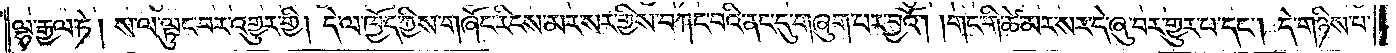ལྷ་རྒྱལ་ཏེ། ས་ལ་ལྟུང་བར་འགྱུར་གྱི། དེ་ལ་ཁྱོད་ཀྱིས་གཞོང་རིངས་མར་སར་གྱིས་བཀང་བའི་ནང་དུ་གཞུག་པར་བྱའོ། །གང་གི་ཚེ་མར་སར་དེ་ཞུ་བར་གྱུར་པ་དང༌། དེ་གཉིས་པ་
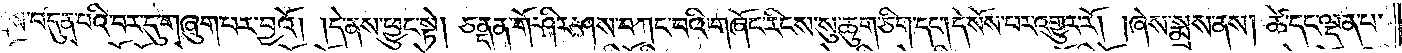ནས་བདུན་པའི་བར་དུ་གཞུག་པར་བྱའོ། །དེ་ནས་ཕྱུང་སྟེ། ཙནྡན་གོ་ཤིར་ཤས་བཀང་བའི་གཞོང་རིངས་སུ་ཆུ་གཅིག་དང༌། དེ་སོས་པར་འགྱུར་རོ། །ཞེས་སྨྲས་ནས། ཚེ་དང་ལྡན་པ་
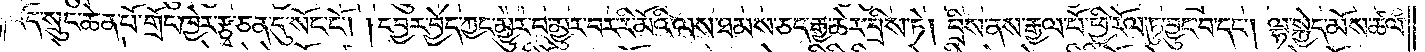འོད་སྲུང་ཆེན་པོ་གྲོང་ཁྱེར་རྩྭ་ཅན་དུ་སོང་ངོ༌། །དབྱར་བྱེད་ཀྱང་མྱུར་བ་མྱུར་བར་རི་མོའི་ལས་ཐམས་ཅད་རྒྱ་ཆེར་བྲིས་ཏེ། བྲིས་ནས་རྒྱལ་པོ་ཕྱི་རོལ་ཏུ་བྱུང་བ་དང༌། ལྷ་སྐྱེད་མོས་ཚལ་
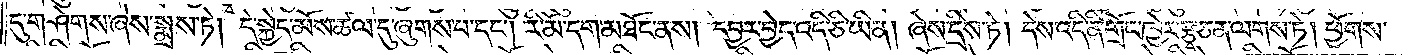དུ་གཤེགས་ཞེས་སྨྲས་ཏེ། དེ་སྐྱེད་མོས་ཚལ་དུ་ཞུགས་པ་དང༌། རི་མོ་དག་མཐོང་ནས། དབྱར་བྱེད་འདི་ཅི་ཡིན། ཞེས་དྲིས་ཏེ། དེས་འདི་ནི་གྲོང་ཁྱེར་རྩྭ་ཅན་ལགས་ཏེ། ཕྱོགས་
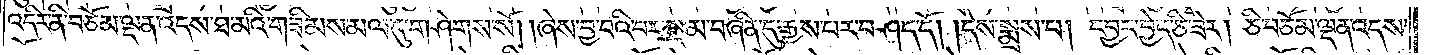འདིར་ནི་བཅོམ་ལྡན་འདས་ཐ་མའི་གཟིམས་མལ་དུ་གཤེགས་སོ། །ཞེས་བྱ་བའི་བར་སྔ་མ་བཞིན་དུ་རྒྱས་པར་བཤད་དོ། །དེས་སྨྲས་པ། དབྱར་བྱེད་ཅི་ཟེར། ཅི་བཅོམ་ལྡན་འདས་
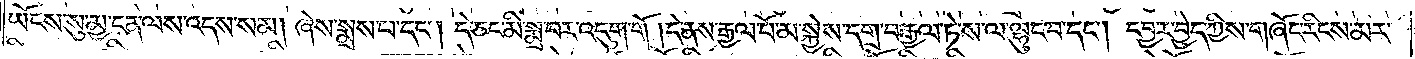ཡོངས་སུ་མྱ་ངན་ལས་འདས་སམ། ཞེས་སྨྲས་པ་དང༌། དེ་ཅང་མི་སྨྲ་བར་འདུག་གོ །དེ་ནས་རྒྱལ་པོ་མ་སྐྱེས་དགྲ་བརྒྱལ་ཏེ་ས་ལ་ལྷུང་བ་དང༌། དབྱར་བྱེད་ཀྱིས་གཞོང་རིངས་མར་
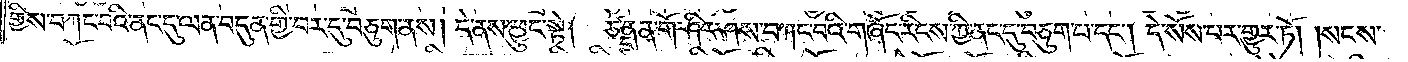གྱིས་བཀང་བའི་ནང་དུ་ལན་བདུན་གྱི་བར་དུ་བཅུག་ནས། དེ་ནས་ཕྱུང་སྟེ། ཙནྡན་གོ་ཤིར་ཤས་བཀང་བའི་གཞོང་རིངས་ཀྱི་ནང་དུ་བཅུག་པ་དང༌། དེ་སོས་པར་གྱུར་ཏེ། །སངས་
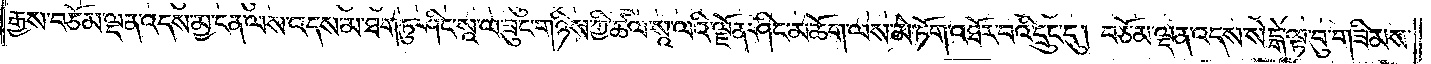རྒྱས་བཅོམ་ལྡན་འདས་མྱ་ངན་ལས་འདས་མ་ཐག་ཏུ་ཤིང་སཱ་ལ་ཟུང་གཉིས་ཀྱི་ཚལ་སཱ་ལའི་ལྗོན་ཤིང་མཆོག་ལས་མེ་ཏོག་འཐོར་བའི་དྲུང་དུ། བཅོམ་ལྡན་འདས་སེངྒེ་ལྟ་བུ་གཟིམས་
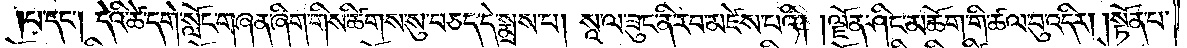།པ་དང༌། དེའི་ཚེ་དགེ་སློང་གཞན་ཞིག་གིས་ཚིགས་སུ་བཅད་དེ་སྨྲས་པ། སཱ་ལ་ཟུང་ནི་རབ་མཛེས་པའི། །ལྗོན་ཤིང་མཆོག་གི་ཚལ་བུ་འདིར། །སྟོན་པ་
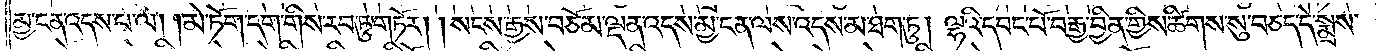མྱ་ངན་འདས་པ་ལ། །མེ་ཏོག་དག་གིས་རབ་ཏུ་གཏོར། །སངས་རྒྱས་བཅོམ་ལྡན་འདས་མྱ་ངན་ལས་འདས་མ་ཐག་ཏུ། ལྷའི་དབང་པོ་བརྒྱ་བྱིན་གྱིས་ཚིགས་སུ་བཅད་དེ་སྨྲས་
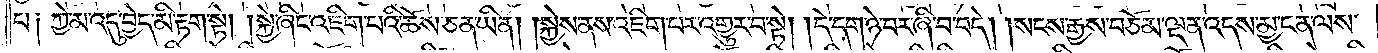པ༑ ཀྱེ་མ་འདུ་བྱེད་མི་རྟག་སྟེ། །སྐྱེ་ཞིང་འཇིག་པའི་ཆོས་ཅན་ཡིན། །སྐྱེས་ནས་འཇིག་པར་འགྱུར་བ་སྟེ། །དེ་དག་ཉེ་བར་ཞི་བ་བདེ། །སངས་རྒྱས་བཅོམ་ལྡན་འདས་མྱ་ངན་ལས་
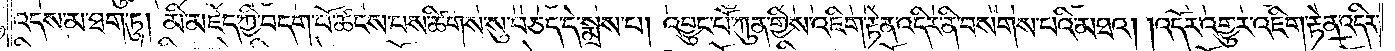འདས་མ་ཐག་ཏུ། མི་མཇེད་ཀྱི་བདག་པོ་ཚངས་པས་ཚིགས་སུ་བཅད་དེ་སྨྲས་པ། འབྱུང་པོ་ཀུན་གྱིས་འཇིག་རྟེན་འདིར་ནི་བསགས་པའི་མཐའ། །འདོར་འགྱུར་འཇིག་རྟེན་འདིར་
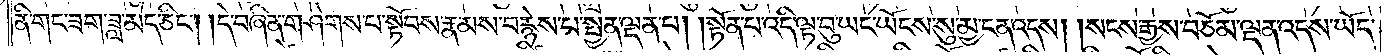ནི་གང་ཟག་ཟླ་མེད་ཅིང༌། །དེ་བཞིན་གཤེགས་པ་སྟོབས་རྣམས་བརྙེས་པ་སྤྱན་ལྡན་པ། །སྟོན་པ་འདི་ལྟ་བུ་ཡང་ཡོངས་སུ་མྱ་ངན་འདས། །སངས་རྒྱས་བཅོམ་ལྡན་འདས་ཡོད་
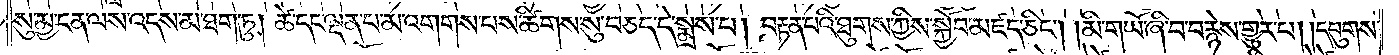སུ་མྱ་ངན་ལས་འདས་མ་ཐག་ཏུ། ཚེ་དང་ལྡན་པ་མ་འགགས་པས་ཚིགས་སུ་བཅད་དེ་སྨྲས་པ། བརྟན་པའི་ཐུགས་ཀྱིས་སྐྱོབ་མཛད་ཅིང༌། །མི་གཡོ་ཞི་བ་བརྙེས་གྱུར་པ། །དབུགས་
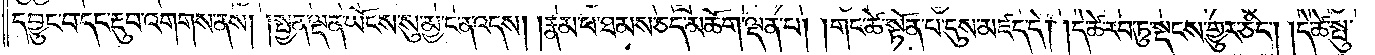དབྱུང་བ་དང་རྔུབ་འགགས་ནས། །སྤྱན་ལྡན་ཡོངས་སུ་མྱ་ངན་འདས། །རྣམ་པ་ཐམས་ཅད་མཆོག་ལྡན་པ། །གང་ཚེ་སྟོན་པ་དུས་མཛད་དེ། །དེ་ཚེ་རབ་ཏུ་སྡངས་གྱུར་ཅིང༌། །དེ་ཚེ་སྤུ་
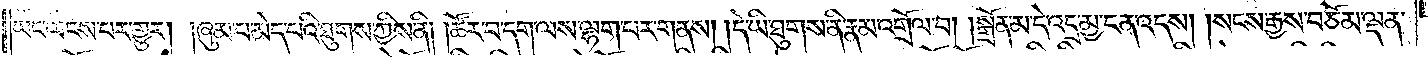ཡང་ལངས་པར་གྱུར། །ཞུམ་པ་མེ་དཔའི་ཐུགས་ཀྱིས་ནི། །ཚོར་བ་དག་ལས་ལྷག་པར་གནས། །དེ་ཡི་ཐུགས་ནི་རྣམ་འགྲོལ་བ། །སྒྲོན་མ་དེ་འདྲ་མྱ་ངན་འདས། །སངས་རྒྱས་བཅོམ་ལྡན་
